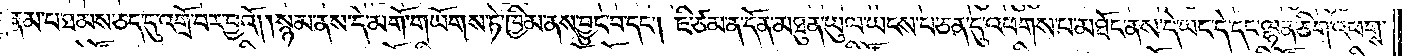རྣམ་པ་ཐམས་ཅད་དུ་འགྲོ་བར་བྱའོ། །སྙམ་ནས་དེ་མགོ་གཡོགས་ཏེ་ཁྱིམ་ནས་བྱུང་བ་དང༌། ཇི་ཙམ་ན་དོན་མཐུན་ཡུལ་ཡངས་པ་ཅན་དུ་འཕགས་པ་མཐོང་ནས་དེ་ཡང་དེ་དང་ལྷན་ཅིག་འཕགས་
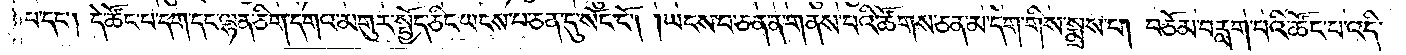པ་དང༌། དེ་ཚོང་པ་དག་དང་ལྷན་ཅིག་དགའ་མགུར་སྤྱོད་ཅིང་ཡངས་པ་ཅན་དུ་སོང་ངོ༌། །ཡངས་པ་ཅན་ན་གནས་པའི་ཚོགས་ཅན་མ་དག་གིས་སྨྲས་པ། བཅོམ་བརླག་པའི་ཚོང་པ་འདི་
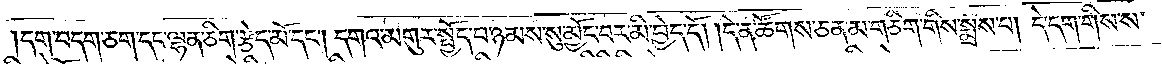།དག་བག་ཅག་དང་ལྷན་ཅིག་རྩེད་མོ་དང༌། དགའ་མགུར་སྤྱོད་པ་ཉམས་སུ་མྱོང་བར་མི་བྱེད་དོ། །དེ་ན་ཚོགས་ཅན་མ་གཅིག་གིས་སྨྲས་པ། དེ་དག་གིས་ས་
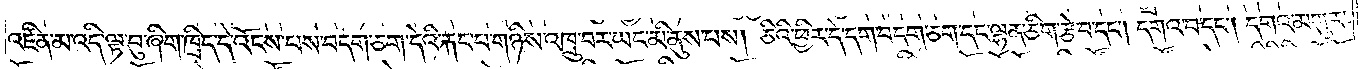འཛིན་མ་འདི་ལྟ་བུ་ཞིག་ཁྲིད་དེ་འོངས་པས་བདག་ཅག་དེའི་རྐང་པ་གཉིས་འཁྲུ་བར་ཡང་མི་ནུས་པས། ཅིའི་ཕྱིར་དེ་དག་བདག་ཅག་དང་ལྷན་ཅིག་རྩེ་བ་དང༌། དགའ་བ་དང༌། དགའ་མགུར་
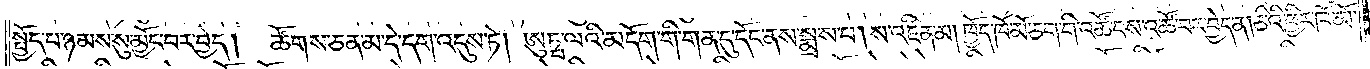སྤྱོད་པ་ཉམས་སུ་མྱོང་པར་བྱེད། ཚོགས་ཅན་མ་དེ་དག་འདུས་ཏེ། ཨུཏྤ་ལའི་མདོག་གི་གན་དུ་དོང་ནས་སྨྲས་པ། ས་འཛིན་མ། ཁྱོད་ཁོ་མོ་ཅག་གི་འཚོ་བས་འཚོ་བར་བྱེད་ན་ཅིའི་ཕྱིར་ཁོ་མོ་
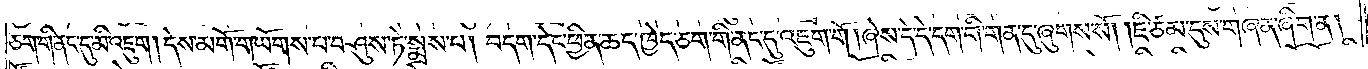ཅག་གི་ནང་དུ་མི་འཇུག །དེས་མགོ་གཡོགས་པ་བཤུས་ཏེ་སྨྲས་པ། བདག་དེང་ཕྱིན་ཆད་ཁྱེད་ཅག་གི་ནང་དུ་འཇུག་གོ། །ཞེས་དེ་དེ་དག་གི་གན་དུ་ཞུགས་སོ། །ཇི་ཙམ་དུས་གཞན་ཞིག་ན།
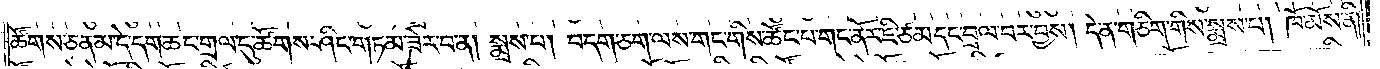ཚོགས་ཅན་མ་དེ་དག་ཆང་གྲལ་དུ་ཚོགས་ཤིང་གཏམ་ཟེར་བ་ན། སྨྲས་པ། བདག་ཅག་ལས་གང་གིས་ཚོང་པ་གང་ནོར་ཇི་ཙམ་དང་བྲལ་བར་བྱས། དེ་ན་གཅིག་གིས་སྨྲས་པ། ཁོ་མོས་ནི།
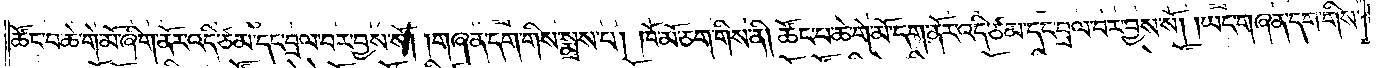ཚོང་པ་ཆེ་གེ་མོ་ཞིག་ནོར་འདི་ཙམ་དང་བྲལ་བར་བྱས་སོ། །གཞན་དག་གིས་སྨྲས་པ། ཁོ་མོ་ཅག་གིས་ནི། ཚོང་པ་ཆེ་གེ་མོ་དག་ནོར་འདི་ཙམ་དང་བྲལ་བར་བྱས་སོ། །ཡང་གཞན་དག་གིས་
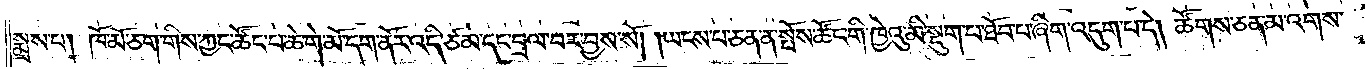སྨྲས་པ། ཁོ་མོ་ཅག་གིས་ཀྱང་ཚོང་པ་ཆེ་གེ་མོ་དག་ནོར་འདི་ཙམ་དང་བྲལ་བར་བྱས་སོ། །ཡངས་པ་ཅན་ན་སྤོས་ཚོང་གི་ཁྱེའུ་མི་སྡུག་པ་ཐོབ་པ་ཞིག་འདུག་པ་དེ། ཚོགས་ཅན་མ་འགས་
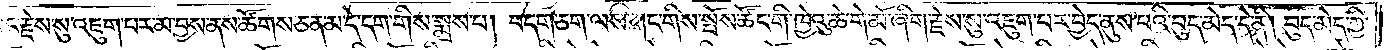ཀྱང་རྗེས་སུ་འཇུག་པར་མ་བྱས་ནས་ཚོགས་ཅན་མ་དེ་དག་གིས་སྨྲས་པ། བདག་ཅག་ལས་གང་གིས་སྤོས་ཚོང་གི་ཁྱེའུ་ཆེ་གེ་མོ་ཞིག་རྗེས་སུ་འཇུག་པར་བྱེད་ནུས་པའི་བུད་མེད་དེ་ནི། བུད་མེད་ཀྱི་
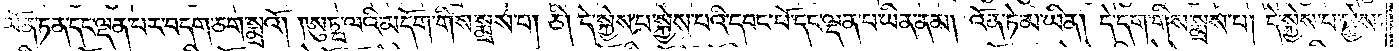ཡོན་ཏན་དང་ལྡན་པར་བདག་ཅག་སྨྲའོ། །ཨུཏྤ་ལའི་མདོག་གིས་སྨྲས་པ། ཅི། དེ་སྐྱེས་པ་སྐྱེས་པའི་དབང་པོ་དང་ལྡན་པ་ཡིན་ནམ། འོན་ཏེ་མ་ཡིན། དེ་དག་གིས་སྨྲས་པ། དེ་སྐྱེས་པ་སྐྱེས་
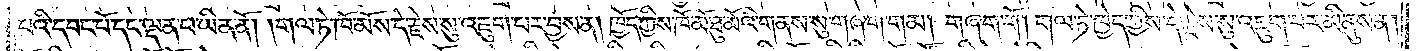པའི་དབང་པོ་དང་ལྡན་པ་ཡིན་ནོ། །གལ་ཏེ་ཁོ་མོས་དེ་རྗེས་སུ་འཇུག་པར་བྱས་ན། ཁྱོད་ཀྱིས་ཁོ་མོ་ཐུ་མོའི་གནས་སུ་གཞག་གམ། གཞག་གོ །གལ་ཏེ་ཁྱེད་ཀྱིས་དེ་རྗེས་སུ་འཇུག་པར་མི་ནུས་ན།
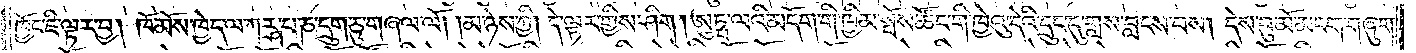ཁྱོད་ཇི་ལྟར་བྱ། ཁོ་མོས་ཁྱེད་ལ་ཀཪྴ་པ་ཎ་དྲུག་ཅུ་གཞལ་ལོ། །མ་ཉེས་ཀྱི། དེ་ལྟར་གྱིས་ཤིག །ཨུཏྤ་ལའི་མདོག་གི་ཁྱིམ་སྤོས་ཚོང་གི་ཁྱེའུ་དེའི་དྲུང་དུ་གླས་བླངས་པས། དེས་བུ་མོ་མངག་གཞུག་
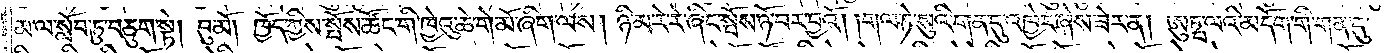མ་ལ་སློབ་ཏུ་བཅུག་སྟེ། བུ་མོ། ཁྱོད་ཀྱིས་སྤོས་ཚོང་གི་ཁྱེའུ་ཆེ་གེ་མོ་ཞིག་ལས། ཉི་མ་རེ་རེ་ཞིང་སྤོས་ཉོ་བར་བྱའོ། །གལ་ཏེ་སུའི་གན་དུ་འཁྱེར་ཞེས་ཟེར་ན། ཨུཏྤ་ལའི་མདོག་གི་གན་དུ་
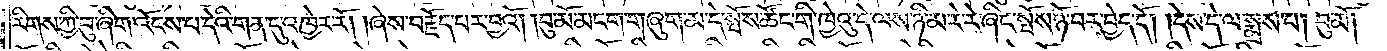རིགས་ཀྱི་བུ་ཞིག་འོངས་པ་དེའི་གན་དུ་འཁྱེར་རོ། །ཞེས་བརྗོད་པར་བྱའོ། །བུ་མོ་མངག་གཞུག་མ་དེ་སྤོས་ཚོང་གི་ཁྱེའུ་དེ་ལས་ཉི་མ་རེ་རེ་ཞིང་སྤོས་ཉོ་བར་བྱེད་དོ། །དེས་དེ་ལ་སྨྲས་པ། བུ་མོ།
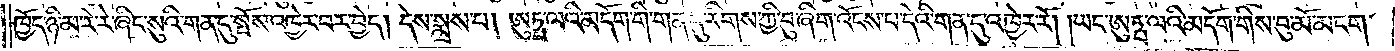ཁྱོད་ཉི་མ་རེ་རེ་ཞིང་སུའི་གན་དུ་སྤོས་འཁྱེར་བར་བྱེད། དེས་སྨྲས་པ། ཨུཏྤ་ལའི་མདོག་གི་གན་དུ་རིགས་ཀྱི་བུ་ཞིག་འོངས་པ་དེའི་གན་དུ་འཁྱེར་རོ། །ཡང་ཨུཏྤ་ལའི་མདོག་གིས་བུ་མོ་མངག་
